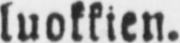luokkien.
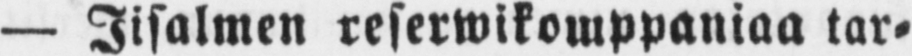— Iisalmen reserwikomppaniaa tar-
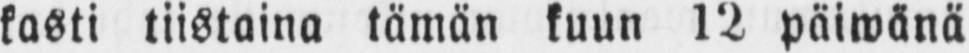kasti tiistaina tämän kuun 12 päiwänä
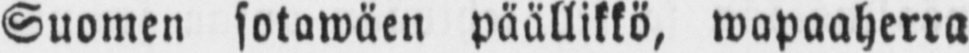Suomen sotawäen päällikkö, wapaaherra
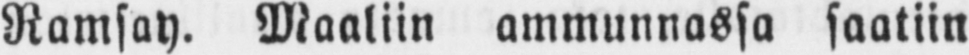Ramsay. Maaliin ammunnassa saatiin
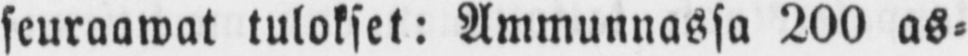seuraawat tulokset: Ammunnassa 200 as-
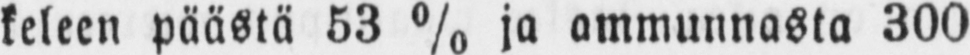keleen päästä 53 % ja ammunnasta 300
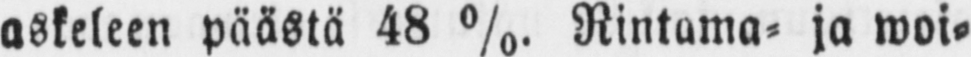askeleen päästä 48 %. Rintama- ja woi-
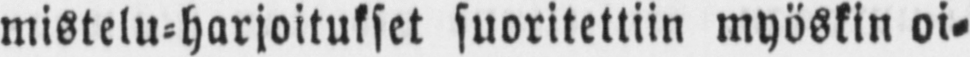mistelu-harjoitukset suoritettiin myöskin oi-
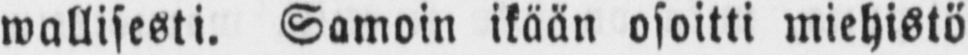wallisesti. Samoin ikään osoitti miehistö
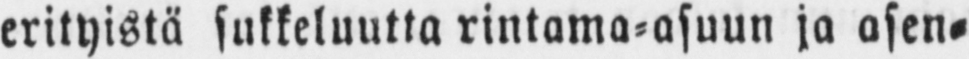erityistä sukkeluutta rintama-asuun ja asen-
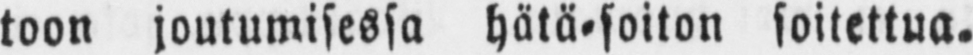toon joutumisessa hätä-soiton soitettua.
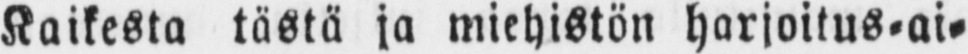Kaikesta tästä ja miehistön harjoitus-ai-
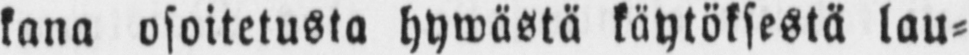kana osoitetusta hywästä käytöksestä lau-
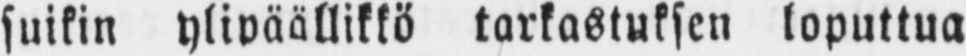suikin ylipäällikkö tarkastuksen loputtua
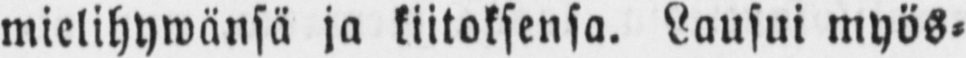mielihywänsä ja kiitoksensa. Lausui myös-
